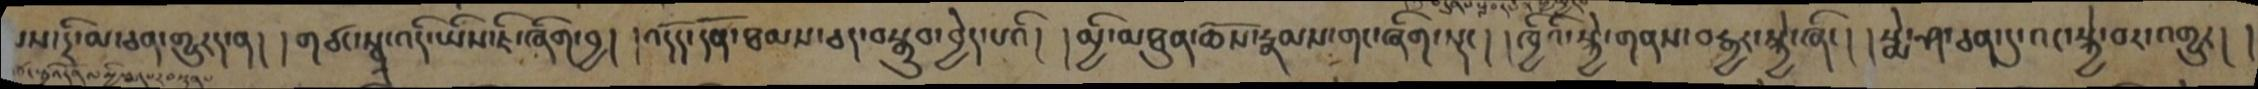་ས་དྲི་མ་ཅན་གྱུརད་ན། །གཙང་སྦྲ་འདི་ཡིས་ཇི་བཞིན་བྱ། །འདོད་དོན་ཐམས་ཅད་བསྒྲུབ་བྱེད་པའི། །མྱི་མཐུན་ཆོས་རྣམས་གང་ཞིག་སྡང། །ཁྱིའི་སྐྱེ་གནས་བརྒྱར་སྐྱེ་ཞིང། །སྨེ་ཤ་ཅན་དུ་འང་སྐྱེ་བར་འགྱུར། །
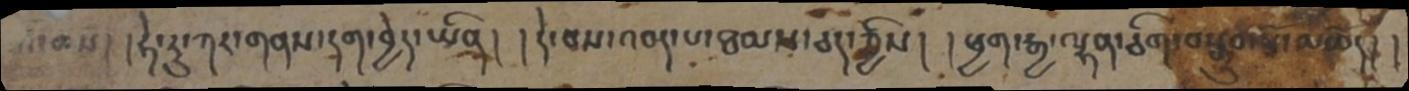ཆོས། །ཧེ་རུ་ཀར་གནས་དག་བྱེད་ཡིན། །དེ་བས་འབད་པ་ཐམས་ཅད་ཀྱིས། །ཕྱག་རྒྱ་ལྷན་ཅིག་བསྒྲུབ་པོ་མཆོད། །
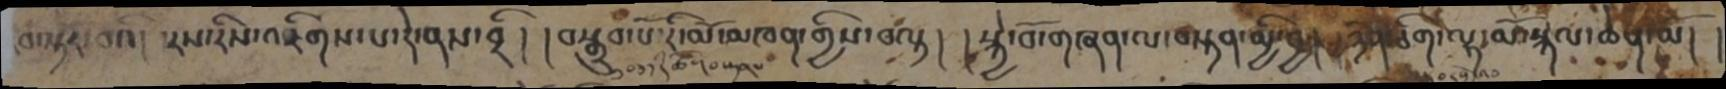བ་སྟར་བའི། །རས་རིས་འཇིགས་པ་དེ་ནས་བྲི། །བསྒྲུབ་པོ་རི་མོ་མཁན་གྱིས་བལྟ། །སྐྱེ་བོ་གཞན་ལ་བསྟན་མྱི་བྱ། །ཉོན་ཅིག་ལྷ་མོ་སྐལ་ཆེན་མོ། །
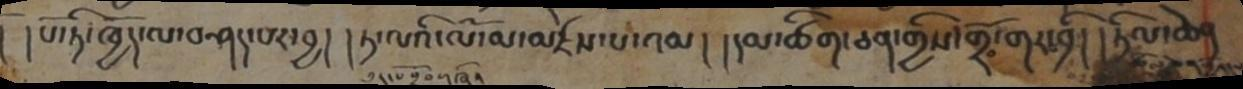། །པོ་ཏི་ཁྱོད་ལ་བཤད་པར་བྱ། །ཏ་ལའི་ལོ་མ་མཛེས་པ་འམ། །དམ་ཚིག་ཅན་གྱིས་གྲོ་གར་བྲི། །ཏིལ་ཆེན
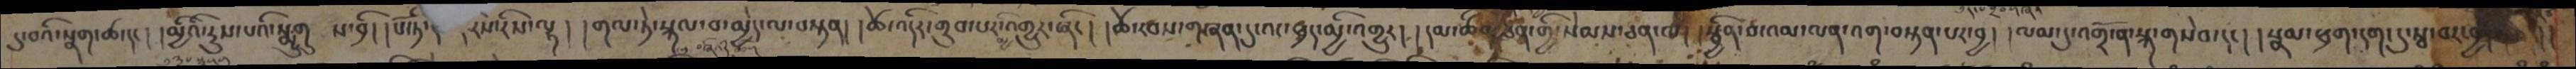དུ་བའི་སྣག་ཚ་དང། །མྱིའི་རུས་པའི་སྨྱུགུ ས་བྱི། །པོ་ཏི་རེས་རིས་ལྷ། །གལ་ཏེ་སྐལ་བ་མྱེད་ལ་བསྟན། །ཚེ་འདིར་གྲུབ་པར་མྱི་འགྱུར་ཞིང། །ཚེ་རབས་གཞན་དུ་འང་ཕྲད་མྱི་འགྱུར། །དམ་ཚིག་ཅན་གྱི་སེམས་ཅན་ལ། །སྦྱིན་བ་འམ་ལན་འག་བསྟན་པར་བྱ། །ལམ་དུ་འགྲོ་ན་སྐ་གསེབ་དང། །སྣམ་ཕྲག་དག་དུ་སྦ་བར་བྱ། །
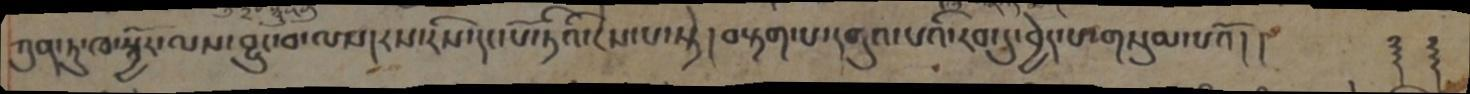ཀུན་ཏུ་ཁ་སྦྱོར་ལས་བྱུང་བ་ལས།རས་རིས་དང་པོ་ཏིའི་ངེས་པ་སྟེ། བརྟག་པ་དགུའ་པའི་རབ་དུ་བྱེད་པ་གསུམ་པའོ། །     ༈ ༈
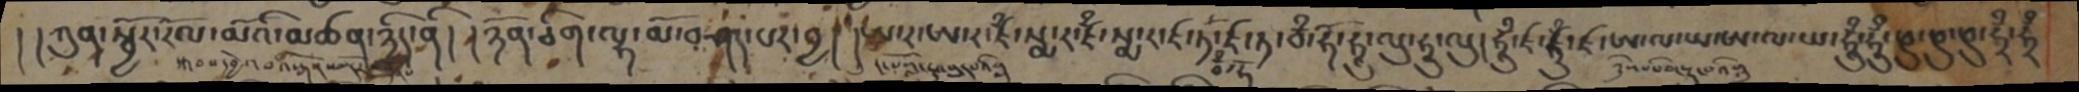། །ཀུན་སྦྱོར་རོལ་མོའི་མཚན་ཉིད་ནི། །ཉོན་ཅིག་ལྷ་མོ་བཤད་པར་བྱ། །ཨ་ར་ཨ་ར་ཛྃ་སྨ་ར་ཛྃ་སྨ་ར་ཛ་ཏ་བྃ་ཧོ་ཛ་ཏ་བྃ་ཧོ་ཧཱུ་ལུ་ཧཱུ་ལུ། ཧཱུྃ་ཛ་ཧཱུྃ་ཛ་ཨ་ལ་ཡ་ཨ་ལ་ཡ་ཧཱུྃ་ཧཱུྃ་ཕུ་ཕུ་ཕུ་ཧྲྃ་ཧྲྃ
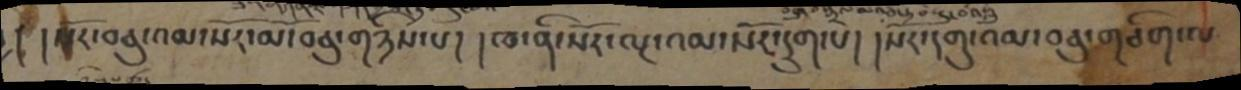། །སོར་བཅུ་འམ་སོར་མོ་བཅུ་གཉིས་པ། །ཁ་ནི་སོར་ལྔ་འམ་སོར་དྲུག་པ། །སོར་དགུ་འམ་བཅུ་གཅིག་ལ
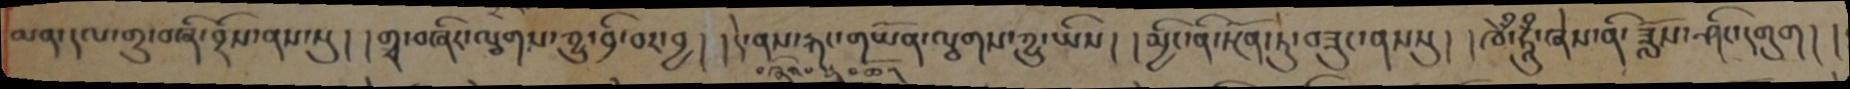མན་དལ་གྲུ་བཞི་བྲོས་ནས་སུ། །གྲྭ་བཞིར་ལྕགས་ཀྱུ་བྲི་བར་བྱ། །དེ་ནས་རྐང་གཡོན་ལྕགས་ཀྱུ་ཡིས། །མྱིང་ནི་སྔོན་ཏུ་བཟུང་ནས་སུ། །ཁེྃ་ཧཱུྃ་ཞེས་ནི་ཟློས་ཤིང་དགུག། །
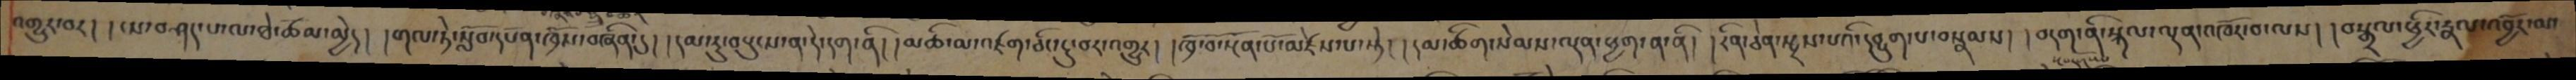འགྱུར་བར། །ཡ་བཤད་པ་ལ་ཐེ་ཚོམ་མྱེད། །གལ་ཏེ་སློབ་དཔོན་ཁྲོས་བཞིན་དུ། །དམ་ཏུ་བསྲུངས་ན་དེ་དག་ནི། །མཆི་མ་འཛག་ཅིང་ངུ་བར་འགྱུར། །ཁྲོ་བོ་སྔོན་པོ་མཛེས་པ་སྟེ། །དམ་ཚིག་སེམས་ལྡན་ཕྱག་ན་ནི། །རིན་ཅེན་སྤྲས་པའི་དབྱུག་པ་བསྣམས། །བདག་ནི་སྐལ་ལྡན་འཁོར་བ་ལས། །བསྒྲལ་ཕྱིར་རྣལ་འབྱོར་མ་
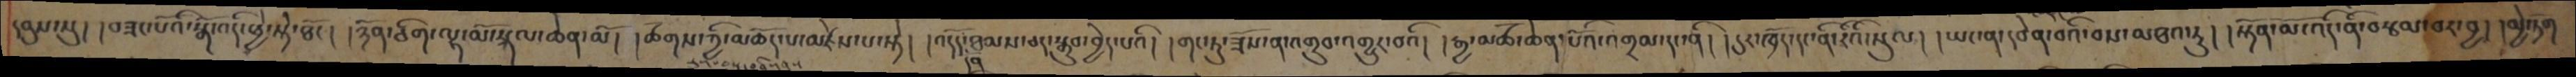དབུས་སུ། །བཟང་པོའི་སྒོ་འདི་ཕྱེ་སྟེ་ཐོང། །ཉོན་ཅིག་ལྷ་མོ་སྐལ་ཆེན་མོ། །ཚོགས་ཀྱི་མཆོད་པ་མཛེས་པ་སྟེ། །འདོད་དོན་ཐམས་ཅད་སྒྲུབ་བྱེད་པའི། །གང་ཏུ་ཟོས་ན་འགྲུབ་འགྱུར་བའི། །རྒྱ་མཚོ་ཆེན་པོའི་འགྲམ་དང་ནི། །དུར་ཁྲོད་དང་ནི་རིའི་སུལ། །ཡང་ན་དབེན་བའི་བས་མཐའ་རུ། །སྟོན་མོ་འདི་ནི་བརྩམ་བར་བྱ། །མྱེ་ཏོག
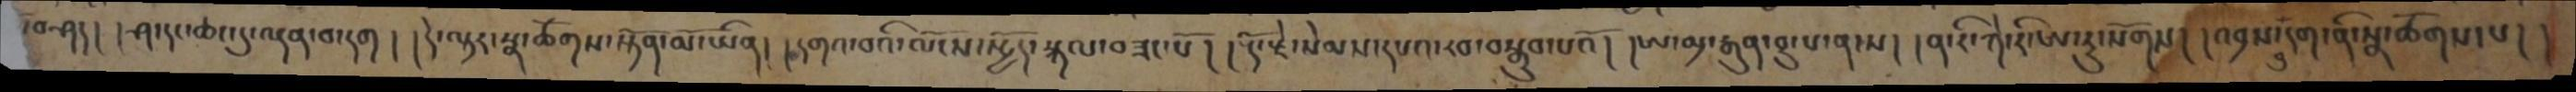བཤད། །ཤ་དང་ཆང་དུ་ལྡན་བ་དག། །དེ་ལྟར་སྣ་ཚོགས་སྟོན་མོ་ཡིན། །དགའ་བའི་ལོངས་སྤྱོད་སྐལ་བཟང་པོ། །རྡོ་རྗེ་སེམས་དཔའ་རབ་བསྒྲུབ་པའོ། །ཨ་མྲ་རྒུན་བུ་པ་ན་ས། །ན་རི་ཀེ་རི་ཨ་རུ་སོགས། །འབྲས་བུ་དག་ནི་སྣ་ཚོགས་པ། །
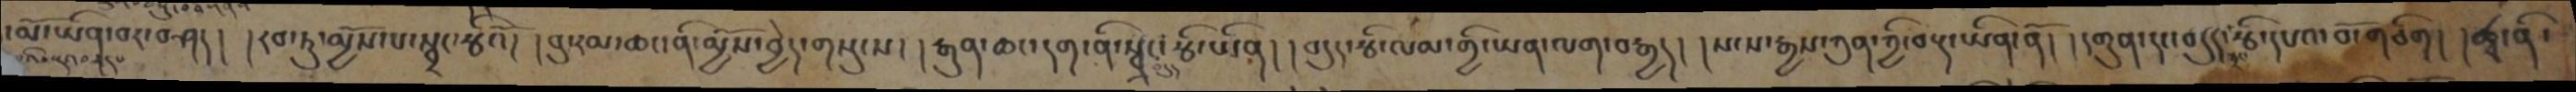་མོ་ཡིན་བར་བཤད། །རབ་ཏུ་མྱོས་པ་སྦྲང་རྩིའོ། །བུ་རམ་ཆང་ནི་མྱོས་བྱེད་གསུངས། །རྒུན་ཆང་དག་ནི་སྦྲང་རྩི་ཡིན། །བདུད་རྩི་ལམ་གྱི་ཡན་ལག་བརྒྱད། །སངས་རྒྱས་ཀུན་ཀྱི་བརྡ་ཡིན་ནོ། །དགུན་དང་བདུད་རྩི་དཔའ་བོ་གཅིག། །ཚྭ་ནི་
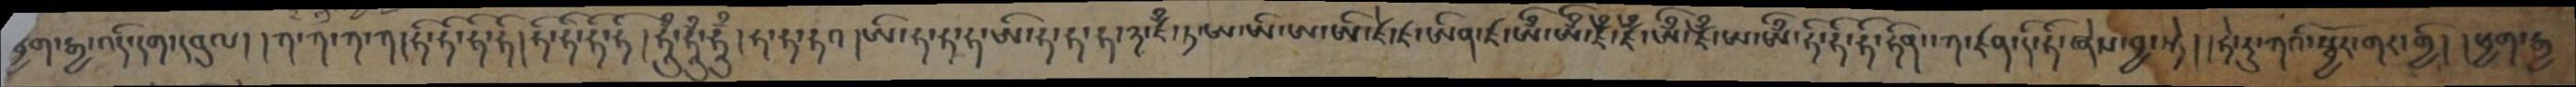ཕྱག་རྒྱ་འདི་དག་དབུལ། །ཀ་ཀ་ཀ་ཀ་ཧི་ཧི་ཧི་ཧི། ཧི་ཧི་ཧི་ཧི། ཧཱུྃ་ཧཱུྃ་ཧཱུྃ། ཧ་ཧ་ཧའ། ཨི་ཧ་ཧ་ཧ་ཨི་ཧ་ཧ་ཧ་྅་ཛྃ་ཏ་ཨ་ཨི་ཨ་ཨི་ཛེ་ཛ་ཨིན་ཛ་ཨྃ་ཨྃ་ཛྃ་ཛྃ་ཨྃ་ཛྃ་ཨ་ཨྃ་ཧི་ཧི་ཧི་ཧིན་ཀ་ཛན་དི་ཧི་ཞེས་བྱ་སྟེ། །ཧེ་རུ་ཀའི་སྦྱོར་གར་གྱི། །ཕྱག་རྒྱ
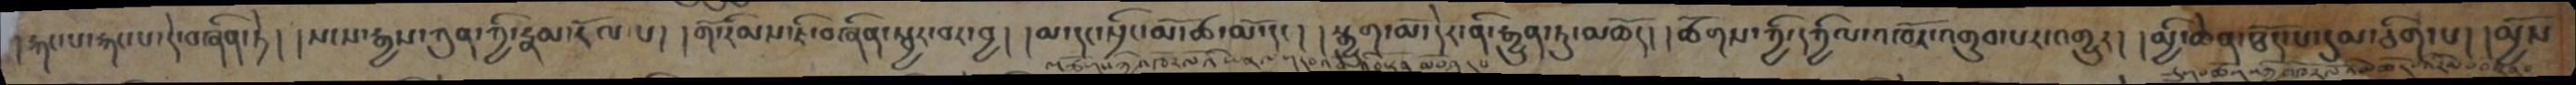།རྐང་པ་རྐང་པ་དེ་བཞིན་ཏེ། །སངས་རྒྱས་ཀུན་གྱི་རྣམ་རོལ་པ། །གོ་རིམས་ཇི་བཞིན་སྦྱར་བར་བྱ། །མ་དང་སྲིང་མོ་ཚ་མོ་དང། །སྒྱུག་མོ་དེར་ནི་རྒྱུན་ཏུ་མཆོད། །ཚོགས་ཀྱི་དཀྱིལ་འཁོར་འགྲུབ་པར་འགྱུར། །མྱི་ཆེན་ཐོད་པ་དུམ་ཅིག་པ། །མྱོས
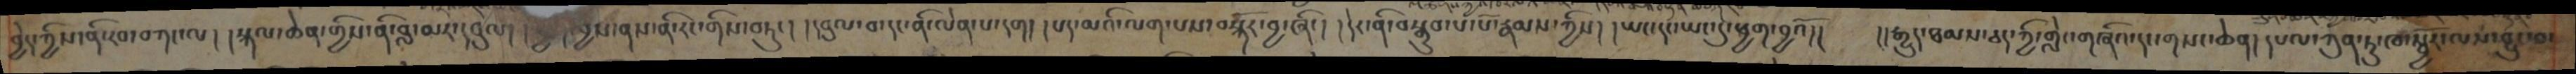བྱེད་ཀྱིས་ནི་རབ་བཀང་ལ། །སྐལ་ཆེན་གྱིས་ནི་བླ་མར་དབུལ། །ཕྱག་བྱས་ནས་ནི་རང་གིས་བཏུང། །དབུལ་བ་དང་ནི་ལེན་པ་དག། །པད་མའི་ལག་པས་བསྐོར་བྱ་ཞིང། །དེར་ནི་བསྒྲུབ་པ་པོ་རྣམས་ཀྱིས། །ཡང་དང་ཡང་དུ་ཕྱག་བྱའོ།།    །།རྒྱུད་ཐམས་ཅད་ཀྱི་གླེང་གཞིའ་དང་གསང་ཆེན། །དཔལ་ཀུན་ཏུ་ཁ་སྦྱོར་ལས་བྱུང་བ་
